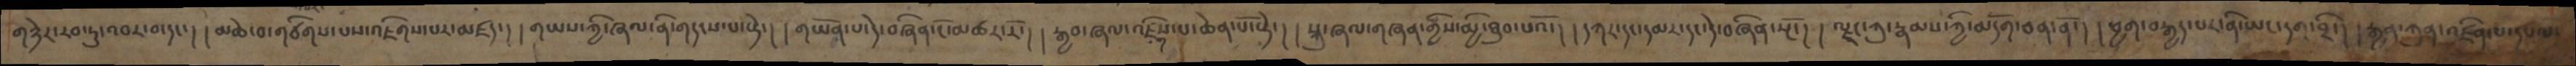གཉེར་རབ་ཏུ་འབར་བ་དང་། །མཆེ་བ་གཙིགས་པས་འཇིགས་པར་མཛད་། །གཡས་ཀྱི་ཞལ་ནི་གདངས་པ་སྟེ་། །གཡོན་པ་དེ་བཞིན་ངོ་མཚར་རོ་། །རྒྱབ་ཞལ་འཇིགས་པ་ཆེན་པོ་སྟེ་། །སྐུ་ཞལ་གཞན་གྱིས་མྱི་ཐུབ་པའོ་། །དཀར་དང་དམར་དང་དེ་བཞིན་སྔོ་། །ལྗང་ཀུ་རྣམས་ཀྱི་མདོག་ཅན་ནོ་། །ཕྱག་བརྒྱད་པར་ནི་ཡང་དག་བྲི་། །རྒྱན་ཀུན་འཛིན་པ་དཔལ་
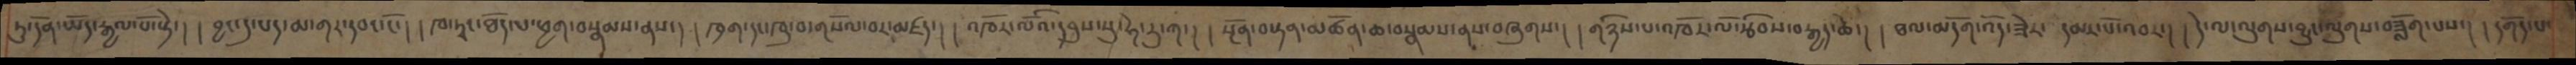ཏུ་དོན་ཡོད་རྒྱལ་པོ་སྟེ་། །བྱང་དུ་པད་མ་གར་དབང་ངོ་། །ཁ་ཏྭང་ཐོད་ལ་ཕྱགབསྣམས་ནས་། ཁྲག་དང་ཁུ་བ་གསོལ་བར་མཛད་། །འཁོར་ལོའི་དབུས་སུ་ཧེ་རུ་ཀ་། །སྔོན་བསྟན་མཚོན་ཆ་བསྣམས་ནས་བཞུགས་། །གཉིས་པ་འཁོར་ལོ་རྩིབས་རྒྱད་ཆེ་། ཐལ་མདོག་འོད་ཟེར་ དམར་པོ་འབར་། །དེ་ལ་ལུགས་བྱུང་ལུགས་བཟློག་པས་། དགོད་པ་
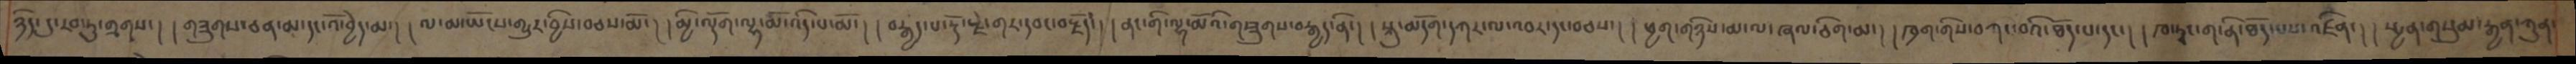ཉིད་དུ་རབ་ཏུ་གྲགས་། །གཟུགས་ཅན་མ་དང་འོ་བྱེད་མ་། །ལ་མ་ཡོངས་གྱུར་བྱིས་བཅས་མོ་། །མྱི་ལྡོག་ལྷ་མོ་འདི་པ་མོ་། །བརྒྱད་པ་རྡོ་རྗེ་གར་དབང་བརྗོད་། །ནང་གི་ལྷ་མོའི་གཟུགས་བརྒྱད་ནི་། །སྐུ་མདོག་དཀར་ལ་འབར་དང་བཅས་། །ཕྱག་གཉིས་མ་ལ་ཞལ་ཅིག་མ་། །ཁྲག་གིས་བཀང་བའི་ཐོད་པ་དང་། །ཁ་ཏྭང་ག་ནི་ཐོད་པས་འཛིན་། །སྤྱན་གསུམ་རྒྱན་ཀུན་
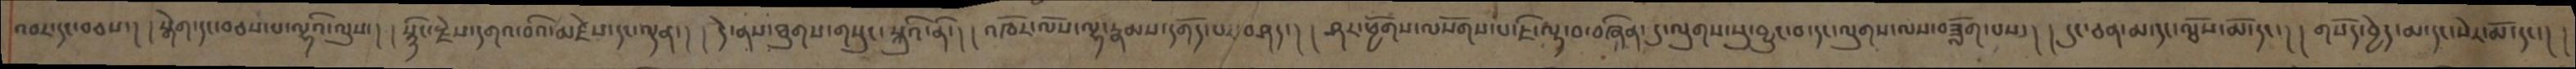འབར་དང་བཅས་།  །སྒེག་དང་བཅས་པ་ལྷའི་ལུས་། །སྙིང་རྗེས་དགའ་བའི་མཛེས་དང་ལྡན་། །དེ་ནས་ཐུགས་གསུང་སྐུའི་ནི་། །འཁོར་ལོས་ལྷ་རྣམས་དགོད་པར་བཤད་། །ཤར་ཕྱོགས་ལསོགས་པ་ཇི་ལྟ་བ་བཞིན་དུ་ལུགས་སུ་བྱུང་བ་དང་ལུགས་ལས་བཟློག་པས་། །དུང་ཅན་མ་དང་ལྕོས་མོ་དང་། །གསོད་བྱེད་མ་དང་སེར་མོ་དང་། །
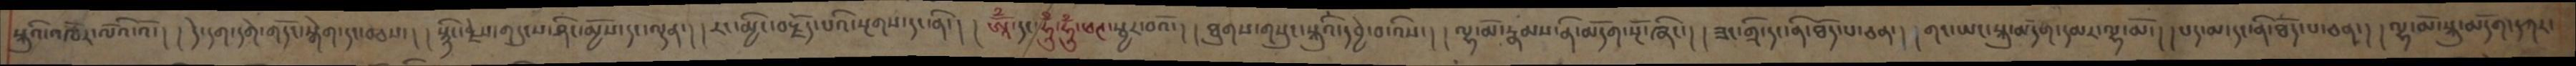སྐུའི་འཁོར་ལོའི་འོ་། །དེ་དག་དགེ་གདོང་སྒེག་དང་བཅས་།  སྙིང་རྗེས་གདུངས་ཤིང་མྱོས་དང་ལྡན་། །རང་མྱིང་བརྗོད་པའི་སྔགས་དང་ནི་། །ཨཱོྃ་དང་ཧཱུྃ་ཧཱུྃ་ཕཊ་སྦྱར་བའོ་། །ཐུགས་གསུང་སྐུའི་དབྱེ་བ་འིས་། །ལྷ་མོ་རྣམས་ནི་མདོག་སྔོ་ཞིང་། །ཟང་གྲི་དང་ནི་ཐོད་པ་ཅན་། །གང་ཡང་སྐུ་མདོག་དམར་ལྷ་མོ་། །པད་མ་དང་ནི་ཐོད་པ་ཅན་། །ལྷ་མོ་སྐུ་མདོག་དཀར་
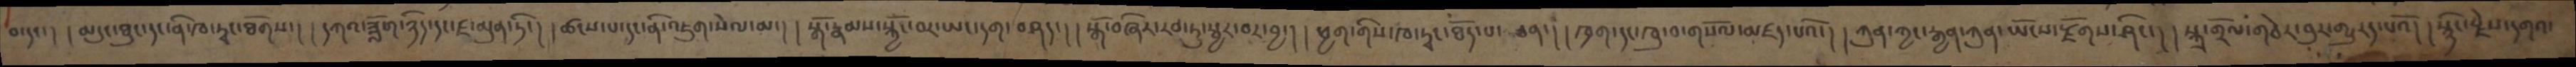བ་དང་། །མདུང་ཐུང་དང་ནི་ཁ་ཏྭང་ཐོགས་། །དཀའ་ཟློག་ཉིད་དང་ཛ་མུན་ཏི་། །ཚངས་པ་དང་ནི་འཇུག་སེལ་མ་། །སྒོ་རྣམས་སྐྱོང་བར་ཡང་དག་བཤད་། །སྒོ་བཞིར་རབ་ཏུ་སྦྱར་བར་བྱ་། །ཕྱག་གིས་ཁ་ཏྭང་ཐོད་པ་ཅན་། །ཁྲག་དང་ཁུ་བ་གསོལ་མཛད་པའོ་། །ཀུན་ཀྱང་རྒྱན་ཀུན་ཡོངས་རྫོགས་ཤིང་། །སྐྲ་གྲོལ་གཅེར་བུར་གྱུརད་པའོ་། །སྙིང་རྗེས་དགའ་
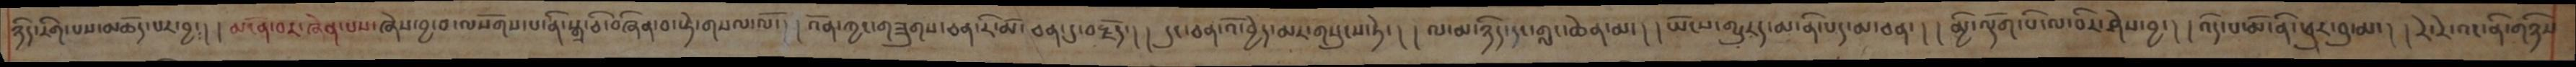ཉིད་རིག་པས་མཆོད་པར་བྱ་། །མངོན་པར་ཞེན་པས་ཞེས་བྱ་བ་ལསོགས་པ་ནི་སྒྲ་ཅི་བཞིན་སྟེ་གསལ་ལོ་། །འོན་ཀྱང་གཟུགས་ཅན་རི་མོ་ཅན་དུ་བརྗོད་། །དུང་ཅན་འོ་བྱེད་མར་གསུངས་ཏེ་། །ལ་མ་ཉིད་དང་གླང་ཆེན་མ་། །ཡོངས་གྱུརད་མ་ནི་པད་མ་ཅན་། །མྱི་ལྡོག་པི་ལ་བིར་ཤེས་བྱ་། །འདི་པ་མོ་ནི་ཕུར་བུ་མ། །རེ་རེ་འང་ནི་གཉིས
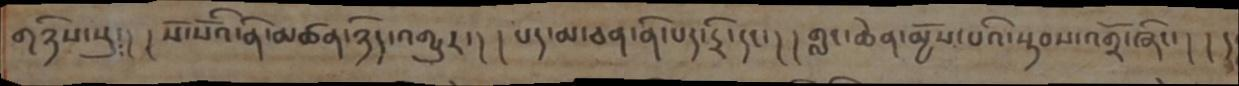གཉིས་སུ༴། །སོ་སོའི་ནི་མཚན་ཉིད་འགྱུར་། །པད་མ་ཅན་ནི་པད་དྲི་དང་། །གླང་ཆེན་མྱོས་པའི་སྟབས་འགྲོ་ཞིང་། །ད་
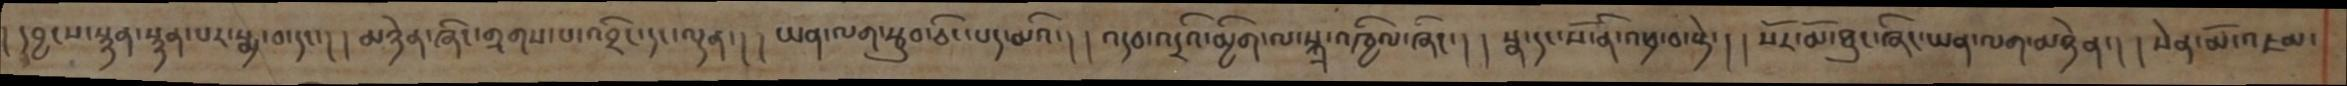དབྱངས་སྙན་སྙན་པར་སྨྲ་བ་དང་། །མཉེན་ཞིང་གྲགས་པ་འབྲིང་དང་ལྡན་། །ཡན་ལག་རྩུབ་ཅིང་པད་མའི་། །འདབ་འདྲའི་མྱིག་ལ་སྐྲ་འཁྱིལ་ཞིང་། །སྣ་དང་སོ་ནི་འཕྲ་བ་སྟེ་། །སོར་མོ་ཐུང་ཞིང་ཡན་ལག་མཉེན་། །སེན་མོ་འཇམ་
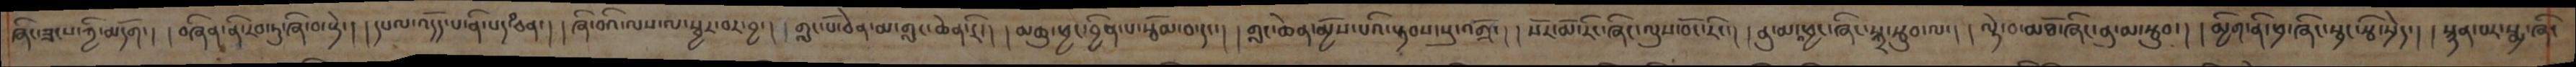ཞིང་ཟངས་ཀྱི་མདོག་། །བཞིན་ནི་རབ་ཏུ་ཞི་བ་སྟེ་། །དཔལ་འདོད་པ་ནི་པད་མ་ཅན་། །ཞི་བའི་ལས་ལ་སྦྱར་བར་བྱ་། །གླང་པོ་ཅེན་མ་གླང་ཆེན་རི་། །མཆུ་ཕྱང་བྱིན་པ་སྦོམ་བ་དང་། །གླང་ཆེན་མྱོས་པའི་སྟབས་སུ་འགྲོ་། །སོར་མོ་རིང་ཞིང་ལུས་བོང་རིང་། །ནུ་མ་འཕྱང་ཞིང་སྐྲ་རྩུབ་ལ་། །ལྟེ་བ་མཐོ་ཞིང་ནུ་མ་སྦུབ་། །མྱིག་ནི་ཕྲ་ཞིང་སྦྲང་རྩི་སྲེད་། ། སྙན་པར་སྨྲ་ཞིང་
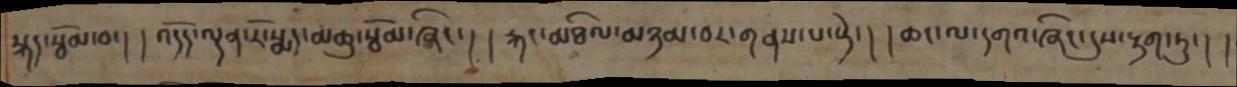སྐད་སྦོམ་བ་། །འདོད་ལྡན་རོ་སྨད་མཆུ་སྦོམ་ཞིང་། །རྐང་མཐིལ་མཉམ་བར་གནས་པ་སྟེ་། ཆང་ལ་དགའ་ཞིང་དུས་རྟག་ཏུ་། །
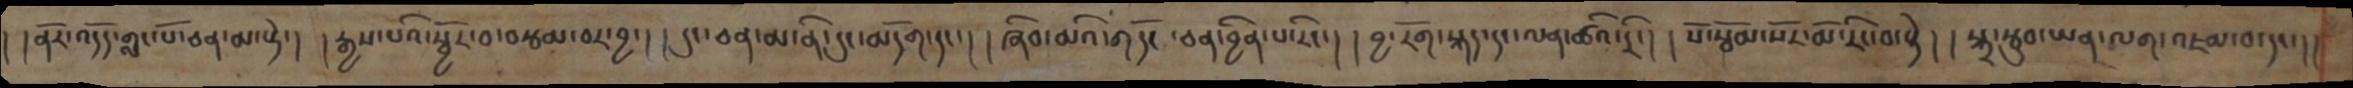། །ནོར་འདོད་གླང་པོ་ཅན་མ་སྟེ་། །རྒྱས་པའི་སྦྱོར་བ་བརྩམ་པར་བྱ་། །དུང་ཅན་མ་ནི་དུང་མདོག་དང་། །ཞིབ་མའི་གདོང་ཅན་བྱིན་པ་རིང་། །བྱ་རོག་སྐད་དང་ལན་ཚའི་དྲི་། །སོ་སྦོམ་སོར་མོ་རིང་བ་སྟེ་། །སྐྲ་རྩུབ་ཡན་ལག་འཇམ་བ་དང་།།
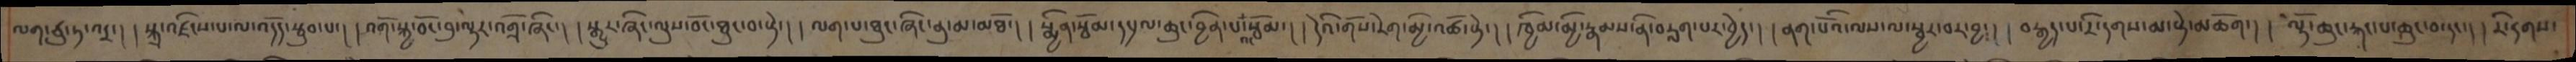ལག་ཙུ་ཏ་འདྲ་། །སྐྲ་འཛིངས་པ་ལ་འདོད་སྦུབ་པ་། །འོག་སྐྱ་བོང་བུ་ལྟར་འགྲོ་ཞིང་། །སྒྱུར་ཞིང་ལུས་བོང་ཐུང་བ་སྟེ་། །ལག་པ་ཐུང་ཞིང་ནུ་མ་མཐོ་། །སྨྱིན་སྦོམ་དཔྲལ་ཆུང་བྱིན་པ་འང་སྦོམ་། །དེའི་གོས་རེག་མྱི་འཚོ་སྟེ་། །ཁྱིམ་མྱི་རྣམས་ནི་བརླག་པར་བྱེད་། །ནག་པོའི་ལས་ལ་སྦྱར་བར་བྱ་། །བརྒྱད་པ་རི་དགས་མ་སྟེ་མཆོག་། །ལྟོ་ཆུང་རྐང་པ་ཆུང་བ་དང་། །རི་དགས་
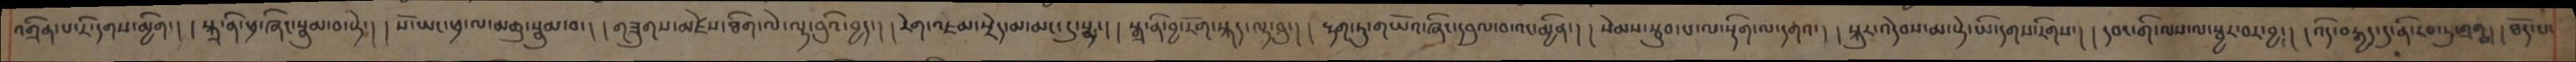འགྲིན་པ་རི་དགས་མྱིག་། །སྐྲ་ནི་ཕྲ་ཞིང་སྣུམ་བ་སྟེ་། །སོ་ཡང་ཕྲ་ལ་མཆུ་སྦུམ་བ་། །གཟུགས་མཛེས་ཐིག་ལེ་ལྟ་བུའི་བྱད་། །རེག་འཇམ་སྲེད་མ་མང་དུ་སྨྲ་། །སྒྲ་ནི་བྱ་རོག་སྐད་ལྟ་བུ་། །རྟག་ཏུ་གཡོའ་ཞིང་དབུལ་བ་འང་མྱིན་། །སེམས་རྩུབ་པ་ལ་སྡིག་ལ་དགའ་། །སྐུར་འདེབས་མ་སྟེ་ཡི་དགས་རིགས་། །དབང་གི་ལས་ལ་སྦྱར་བར་བྱ་། །འདི་བརྒྱད་དུ་ནི་རབ་ཏུ་གྲགས་། །ཐོད་པ་
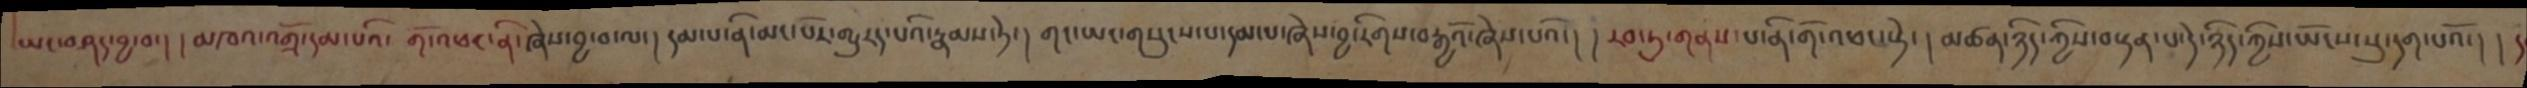ཡང་བཤད་བྱ་བ་། །་མཁའ་འགྲོ་དམ་པའི་ གོ་འཕང་ནི་ཞེས་བྱ་བ་ལ་། དམ་པ་ནི་མང་པོར་གྱུརད་པའི་རྣམས་ཏེ་། གང་ཡང་གསུངས་པ་དམ་པ་ཞེས་བྱ་རིགས་བརྒྱའོ་ཞེས་པའོ་། །རབ་ཏུ་གནས་པ་ནི་གོ་འཕང་སྟེ་། མཚན་ཉིད་ཀྱིས་བསྟན་པ་དེ་ཉིད་ཀྱིས་ཡོངས་སུ་དག་པའོ་། །
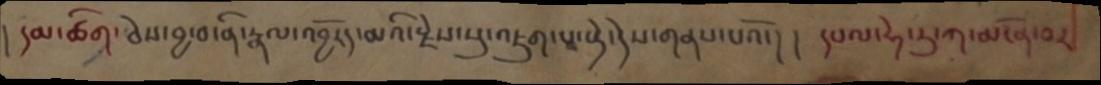། དམ་ཚིག་ཅེས་བྱ་བ་ནི་རྣལ་འབྱོརད་མའི་རྗེས་སུ་འཇུག་པ་སྟེ་དེས་གནས་པའོ་། །དཔལ་ཧེ་རུ་ཀ་མངོན་པར
